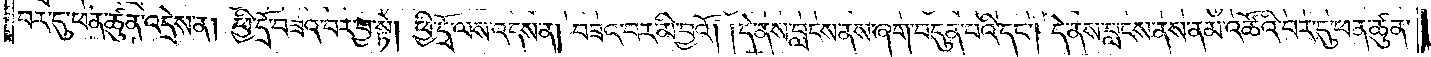བར་དུ་ཕན་ཚུན་འདྲེས་ན། ཕྱི་དྲོ་བཟའ་བར་བྱ་སྟེ། ཕྱི་དྲོ་ལས་འདས་ན། བཟའ་བར་མི་བྱའོ། །དེ་ནས་བླངས་ནས་ཞག་བདུན་པའི་དང༌། དེ་ནས་བླངས་ནས་ནམ་འཚོའི་བར་དུ་ཕན་ཚུན་
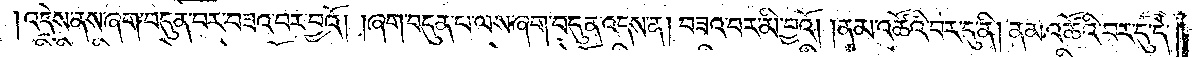འདྲེས་ནས་ཞག་བདུན་པར་བཟའ་བར་བྱའོ། །ཞག་བདུན་པ་ལས་ཞག་བདུན་འདས་ན། བཟའ་བར་མི་བྱའོ། །ནམ་འཚོའི་བར་དུ་ནི། ནམ་འཚོའི་བར་དུ་དེ་
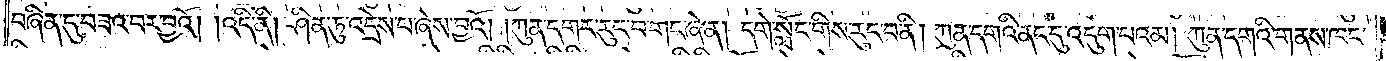བཞིན་དུ་བཟའ་བར་བྱའོ། །འདི་ནི། ཤིན་ཏུ་འདྲེས་པ་ཞེས་བྱའོ། །ཀུན་དགར་རུང་བ་གང་ཞེ་ན། དགེ་སློང་གིས་རུང་བ་ནི། ཀུན་དགའི་ནང་དུ་འདུག་པའམ། ཀུན་དགའི་གནས་ཁང་
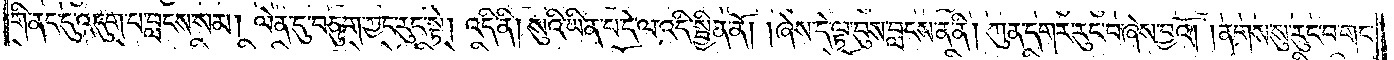གི་ནང་དུ་འདུག་པ་བླངས་སམ། ལེན་དུ་བཅུག་ཀྱང་རུང་སྟེ། འདི་ནི། སུའི་ཡིན་པ་དེ་ལ་འདི་སྦྱིན་ནོ། །ཞེས་དེ་ལྟ་བུས་བླངས་ན་ནི། ཀུན་དགར་རུང་བ་ཞེས་བྱའོ། །ནགས་སུ་རུང་བ་གང་
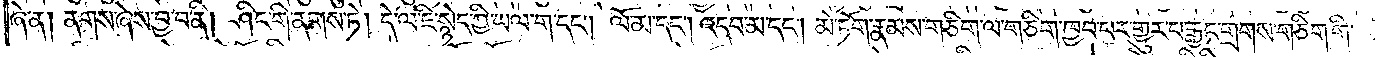ཞེ་ན། ནགས་ཞེས་བྱ་བ་ནི། ཤིང་གི་ནགས་ཏེ། དེ་ལ་ཇི་སྙེད་ཀྱི་ཡལ་ག་དང༌། ལོ་མ་དང༌། འདབ་མ་དང༌། མེ་ཏོག་རྣམས་གཅིག་ལ་གཅིག་ཁྱབ་པར་གྱུར་པ་རྒྱང་གྲགས་གཅིག་གི་
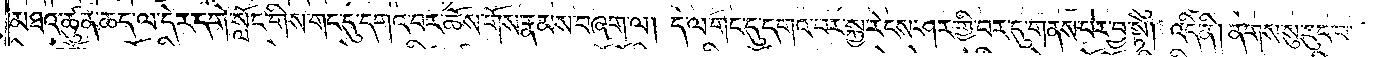མཐའ་ཚུན་ཆད་ལ་དེར་དགེ་སློང་གིས་གང་དུ་དགའ་བར་ཆོས་གོས་རྣམས་བཞག་ལ། དེ་ལ་གང་དུ་དགའ་བར་སྐྱ་རེངས་ཤར་གྱི་བར་དུ་གནས་པར་བྱ་སྟེ། འདི་ནི། ནགས་སུ་རུང་བ་
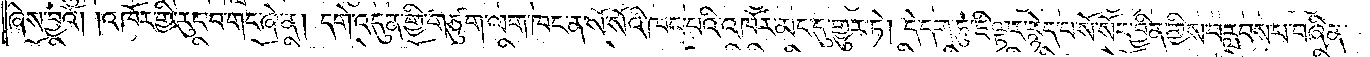ཞེས་བྱའོ། །འཁོར་གྱི་རུང་བ་གང་ཞེ་ན། དགེ་འདུན་གྱི་གཙུག་ལག་ཁང་ན་སོ་སོའི་ཁང་པའི་འཁོར་མང་དུ་གྱུར་ཏེ། དེ་དག་ཏུ་ཇི་ལྟར་རྙེད་པ་སོ་སོར་བྱིན་གྱིས་བརླབས་པ་བཞིན་
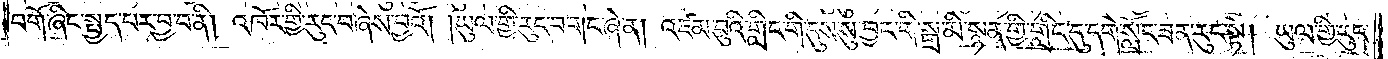བགོ་ཞིང་སྤྱད་པར་བྱ་བ་ནི། འཁོར་གྱི་རུང་བ་ཞེས་བྱའོ། །ཡུལ་གྱི་རུང་བ་གང་ཞེ་ན། འཛམ་བུའི་གླིང་གི་དུས་སུ་བྱང་གི་སྒྲ་མི་སྙན་གྱི་གླིང་དུ་དགེ་སློང་ཟན་རུང་སྟེ། ཡུལ་གྱི་རུང་
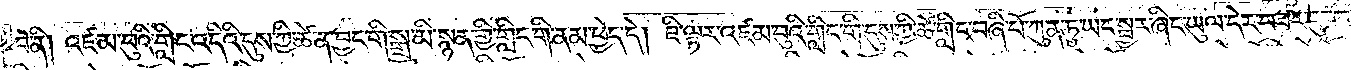བ་ནི། འཛམ་བུའི་གླིང་འདིའི་དུས་ཀྱི་ཚེ་ན་བྱང་གི་སྒྲ་མི་སྙན་གྱི་གླིང་གི་ནམ་ཕྱེད་དེ། ཇི་ལྟར་འཛམ་བུའི་གླིང་གི་དུས་ཀྱི་ཚེ་གླིང་བཞི་པོ་ཀུན་ཏུ་ཡང་སྦྱར་ཞིང་ཡུལ་དེར་བཟར་
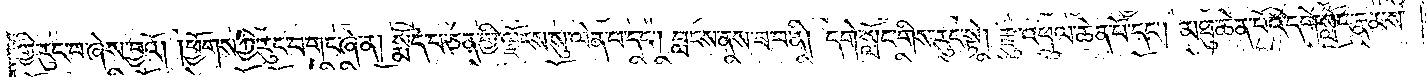གྱི་རུང་བ་ཞེས་བྱའོ། །ཕྱོགས་ཀྱི་རུང་བ་གང་ཞེ་ན། སྨོད་པ་ཅན་གྱི་ལྗོངས་སུ་ལེན་པ་དང༌། བླངས་ནས་ཟ་བ་ནི། དགེ་སློང་གིས་རུང་སྟེ། རྫུ་འཕྲུལ་ཆེན་པོ་དང༌། མཐུ་ཆེན་པོའི་དགེ་སློང་རྣམས་
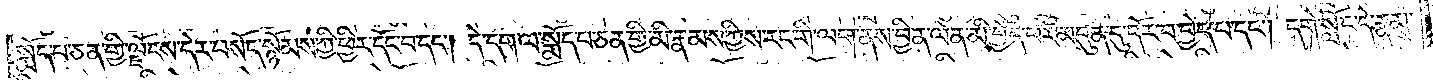སྨོད་པ་ཅན་གྱི་ལྗོངས་དེར་བསོད་སྙོམས་ཀྱི་ཕྱིར་དོང་བ་དང༌། དེ་དག་ལ་སྨོད་པ་ཅན་གྱི་མི་རྣམས་ཀྱིས་རང་གི་ལག་ནས་བྱིན་ལེན་མི་བྱེད་པར་མདུན་དུ་དོར་བ་བྱེད་པ་དང༌། དགེ་སློང་དེ་རྣམས་
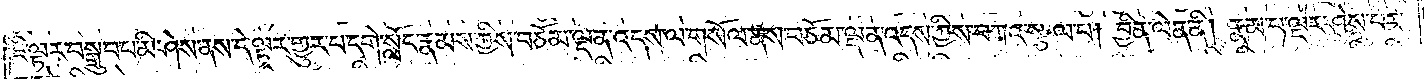ཇི་ལྟར་བསྒྲུབ་པ་མི་ཤེས་ནས་དེ་ལྟར་གྱུར་པ་དགེ་སློང་རྣམས་ཀྱིས་བཅོམ་ལྡན་འདས་ལ་གསོལ་ནས་བཅོམ་ལྡན་འདས་ཀྱིས་བཀའ་སྩལ་པ། བྱིན་ལེན་ནི། རྣམ་པ་ལྔར་ཤེས་པར་
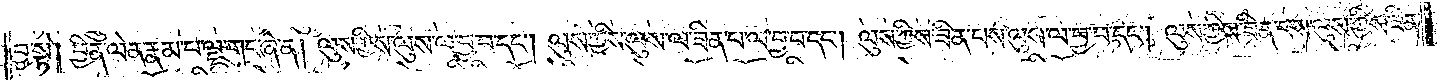བྱ་སྟེ། བྱིན་ལེན་རྣམ་པ་ལྔ་གང་ཞེ་ན། ལུས་ཀྱིས་ལུས་ལ་བྱ་བ་དང༌། ལུས་ཀྱིས་ལུས་ལ་ཟིན་པ་ལ་བྱ་བ་དང༌། ལུས་ཀྱིས་ཟིན་པས་ལུས་ལ་བྱ་བ་དང༌། ལུས་ཀྱིས་ཟིན་པས་ལུས་ཀྱིས་ཟིན་
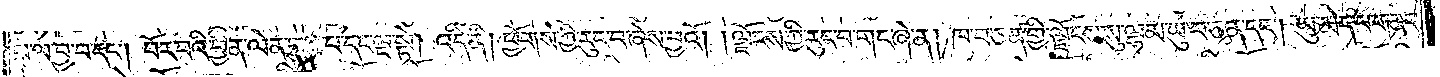པ་ལ་བྱ་བ་དང༌། པོར་བའི་བྱིན་ལེན་བྱས་པ་དང་ལྔ་སྟེ། འདི་ནི། ཕྱོགས་ཀྱི་རུང་བ་ཞེས་བྱའོ། །ལྗོངས་ཀྱི་རུང་བ་གང་ཞེ་ན། ཁ་བ་ཅན་གྱི་ལྗོངས་སུ་ལྷམ་ཡུ་བ་ཅན་དང༌། ཡུ་མེད་པ་གནང་
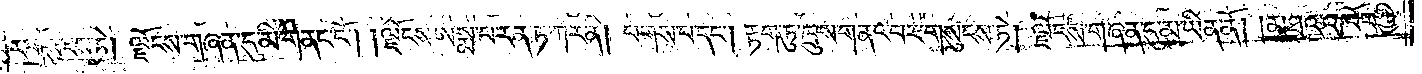བར་གསུངས་ཏེ། ལྗོངས་གཞན་དུ་མི་གནང་ངོ༌། །ལྗོངས་ཨསྨ་པ་རན་ཏ་ཀར་ནི། པགས་པ་དང༌། རྟག་ཏུ་ཁྲུས་གནང་བར་གསུངས་ཏེ། ལྗོངས་གཞན་དུ་མ་ཡིན་ནོ། །མཐའ་འཁོབ་ཀྱི་
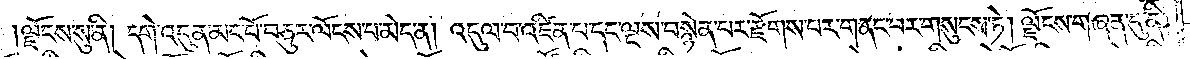ལྗོངས་སུ་ནི། དགེ་འདུན་མང་པོ་བཅུར་ལོངས་པ་མེད་ན། འདུལ་བ་འཛིན་པ་དང་ལྔས་བསྙེན་པར་རྫོགས་པར་གནང་བར་གསུངས་ཏེ། ལྗོངས་གཞན་དུ་ནི།
